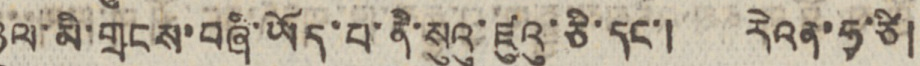ཉུལ་མི་གྲངས་བཞི་ཡོད་པ་ནི་སུའུ་ཛུའུ་ཅི་དང་། རེའན་ཧྭ་ཙི།
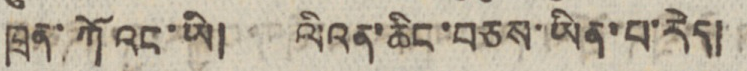ཁྲན་ཀོའང་ཡི། ལིའན་ཆིང་བཅས་ཡིན་པ་རེད།
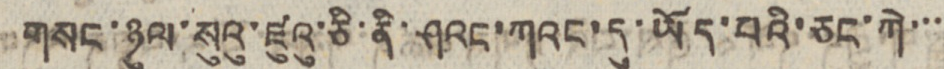གསང་ཉུལ་སུའུ་ཛུའུ་ཅི་ནི་ཤའང་ཀའང་དུ་ཡོད་པའི་ཅང་ཀེ་་་་
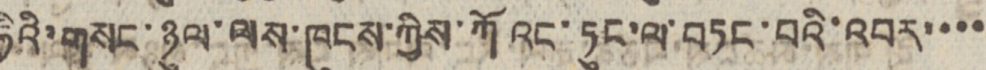ཧྲིའི་གསང་ཉུལ་ལས་ཁུངས་ཀྱིས་ཀོའང་ཏུང་ལ་བཏང་བའི་འབར་་་་
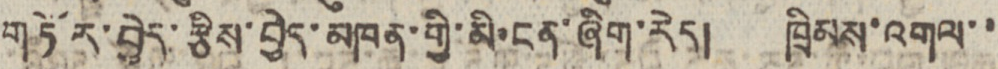གཏོར་བྱེད་རྩིས་བྱེད་མཁན་གྱི་མི་ངན་ཞིག་རེད། ཁྲིམས་འགལ་་
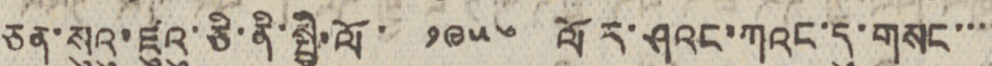ཅན་སུའུ་ཛུའུ་ཅི་ནི་སྤྱི་ལོ་ ༡༩༥༦ ལོར་ཤའང་ཀའང་དུ་གསང་་་་
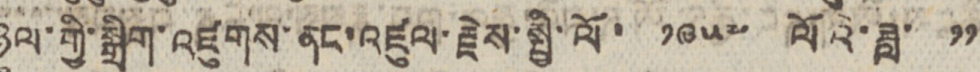ཉུལ་གྱི་སྒྲིག་འཛུགས་ནང་འཛུལ་རྗེས་སྤྱི་ལོ་ ༡༩༥༧ ལོའི་ཟླ་ ༡༡
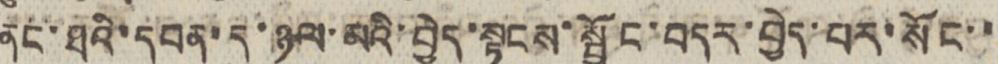ནང་ཐའི་དབན་དུ་ཉུལ་མའི་བྱེད་སྟངས་སྦྱོང་བདར་བྱེད་པར་སོང་་
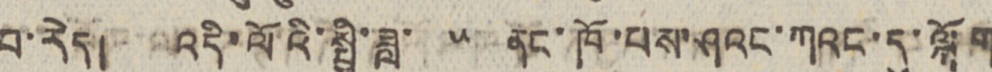བ་རེད། འདི་ལོའི་སྤྱི་ཟླ་ ༥ ནང་ཁོ་པས་ཤའང་ཀའང་དུ་ལྐོག
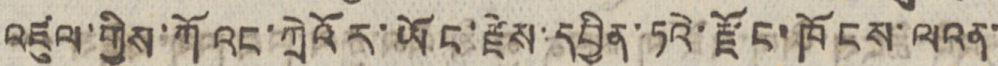འཛུལ་གྱིས་ཀོའང་ཀྲེའོར་ཡོང་རྗེས་དབྱིན་ཏའེ་རྫོང་ཁོངས་ལའན་
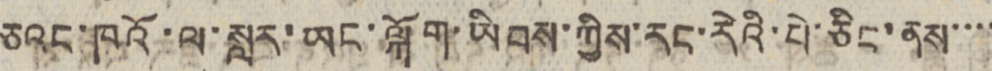ཅའང་ཁའོ་ལ་སླར་ཡང་ལྐོག་ཡིབས་ཀྱིས་རང་རེའི་པེ་ཅིང་ནས་་་་
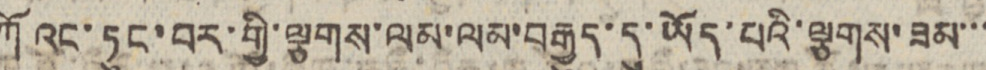ཀོའང་ཏུང་བར་གྱི་ལྕགས་ལམ་ལམ་བརྒྱུད་དུ་ཡོད་པའི་ལྕགས་ཟམ་་་
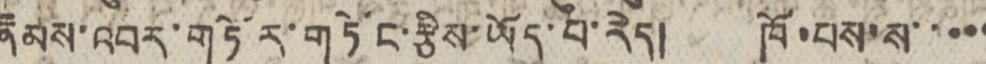རྣམས་འབར་གཏོར་གཏོང་རྩིས་ཡོད་པ་རེད། ཁོ་པས་ས་་་་་
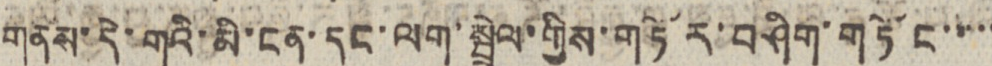གནས་དེ་གའི་མི་ངན་དང་ལག་སྦྲེལ་གྱིས་གཏོར་བཤིག་གཏོང་་་་་
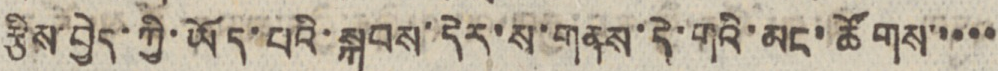རྩིས་བྱེད་ཀྱི་ཡོད་པའི་སྐབས་དེར་ས་གནས་དེ་གའི་མང་ཚོགས་་་་་
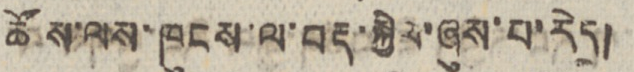ཚོས་ལས་ཁུངས་ལ་བརྡ་སྐྱེལ་ཞུས་པ་རེད།
